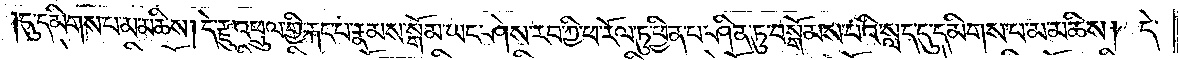དུ་དམིགས་པ་མ་མཆིས། དེ་རྫུ་འཕྲུལ་གྱི་རྐང་པ་རྣམས་སྒོམ་ཡང་ཤེས་རབ་ཀྱི་ཕ་རོལ་ཏུ་ཕྱིན་པ་ཤིན་ཏུ་བསྒོམས་པའི་སླད་དུ་དམིགས་པ་མ་མཆིས། དེ་
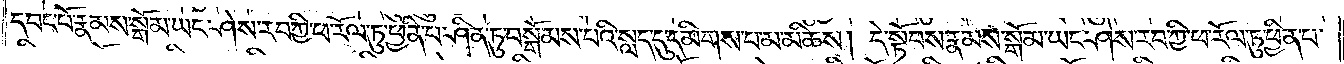དབང་པོ་རྣམས་སྒོམ་ཡང་ཤེས་རབ་ཀྱི་ཕ་རོལ་ཏུ་ཕྱིན་པ་ཤིན་ཏུ་བསྒོམས་པའི་སླད་དུ་དམིགས་པ་མ་མཆིས། དེ་སྟོབས་རྣམས་སྒོམ་ཡང་ཤེས་རབ་ཀྱི་ཕ་རོལ་ཏུ་ཕྱིན་པ་
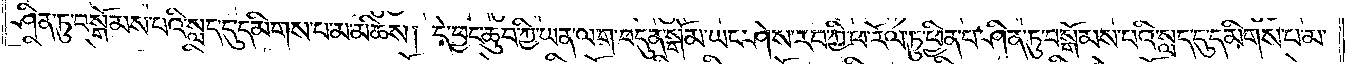ཤིན་ཏུ་བསྒོམས་པའི་སླད་དུ་དམིགས་པ་མ་མཆིས། དེ་བྱང་ཆུབ་ཀྱི་ཡན་ལག་བདུན་སྒོམ་ཡང་ཤེས་རབ་ཀྱི་ཕ་རོལ་ཏུ་ཕྱིན་པ་ཤིན་ཏུ་བསྒོམས་པའི་སླད་དུ་དམིགས་པ་མ་
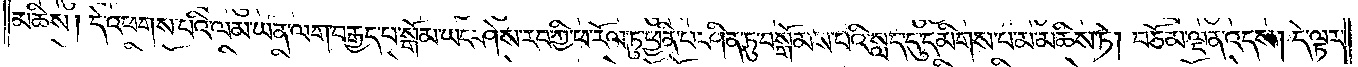མཆིས། དེ་འཕགས་པའི་ལམ་ཡན་ལག་བརྒྱད་པ་སྒོམ་ཡང་ཤེས་རབ་ཀྱི་ཕ་རོལ་ཏུ་ཕྱིན་པ་ཤིན་ཏུ་བསྒོམས་པའི་སླད་དུ་དམིགས་པ་མ་མཆིས་ཏེ། བཅོམ་ལྡན་འདས། དེ་ལྟར་
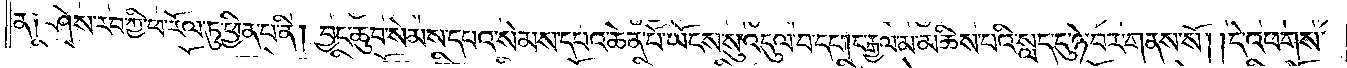ན། ཤེས་རབ་ཀྱི་ཕ་རོལ་ཏུ་ཕྱིན་པ་ནི། བྱང་ཆུབ་སེམས་དཔའ་སེམས་དཔའ་ཆེན་པོ་ཡོངས་སུ་འདུལ་བ་དང༌། ང་རྒྱལ་མ་མཆིས་པའི་སླད་དུ་ཉེ་བར་གནས་སོ། །དེ་འཕགས་
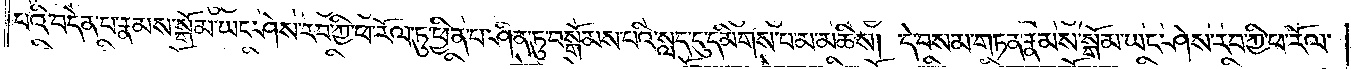པའི་བདེན་པ་རྣམས་སྒོམ་ཡང་ཤེས་རབ་ཀྱི་ཕ་རོལ་ཏུ་ཕྱིན་པ་ཤིན་ཏུ་བསྒོམས་པའི་སླད་དུ་དམིགས་པ་མ་མཆིས། དེ་བསམ་གཏན་རྣམས་སྒོམ་ཡང་ཤེས་རབ་ཀྱི་ཕ་རོལ་
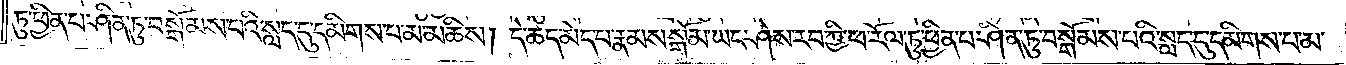ཏུ་ཕྱིན་པ་ཤིན་ཏུ་བསྒོམས་པའི་སླད་དུ་དམིགས་པ་མ་མཆིས། དེ་ཚད་མེད་པ་རྣམས་སྒོམ་ཡང་ཤེས་རབ་ཀྱི་ཕ་རོལ་ཏུ་ཕྱིན་པ་ཤིན་ཏུ་བསྒོམས་པའི་སླད་དུ་དམིགས་པ་མ་
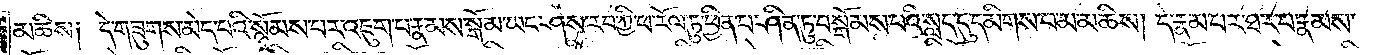མཆིས། དེ་གཟུགས་མེད་པའི་སྙོམས་པར་འཇུག་པ་རྣམས་སྒོམ་ཡང་ཤེས་རབ་ཀྱི་ཕ་རོལ་ཏུ་ཕྱིན་པ་ཤིན་ཏུ་བསྒོམས་པའི་སླད་དུ་དམིགས་པ་མ་མཆིས། དེ་རྣམ་པར་ཐར་པ་རྣམས་
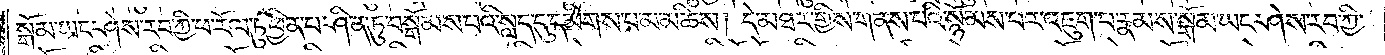སྒོམ་ཡང་ཤེས་རབ་ཀྱི་ཕ་རོལ་ཏུ་ཕྱིན་པ་ཤིན་ཏུ་བསྒོམས་པའི་སླད་དུ་དམིགས་པ་མ་མཆིས། དེ་མཐར་གྱིས་གནས་པའི་སྙོམས་པར་འཇུག་པ་རྣམས་སྒོམ་ཡང་ཤེས་རབ་ཀྱི་
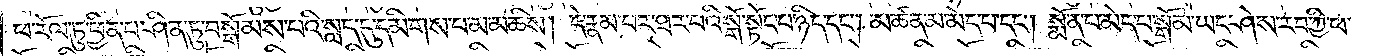ཕ་རོལ་ཏུ་ཕྱིན་པ་ཤིན་ཏུ་བསྒོམས་པའི་སླད་དུ་དམིགས་པ་མ་མཆིས། དེ་རྣམ་པར་ཐར་པའི་སྒོ་སྟོང་པ་ཉིད་དང༌། མཚན་མ་མེད་པ་དང༌། སྨོན་པ་མེད་པ་སྒོམ་ཡང་ཤེས་རབ་ཀྱི་ཕ་
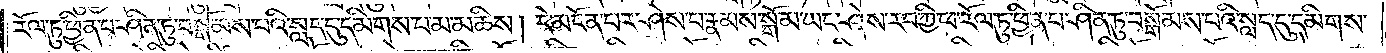རོལ་ཏུ་ཕྱིན་པ་ཤིན་ཏུ་བསྒོམས་པའི་སླད་དུ་དམིགས་པ་མ་མཆིས། དེ་མངོན་པར་ཤེས་པ་རྣམས་སྒོམ་ཡང་ཤེས་རབ་ཀྱི་ཕ་རོལ་ཏུ་ཕྱིན་པ་ཤིན་ཏུ་བསྒོམས་པའི་སླད་དུ་དམིགས་
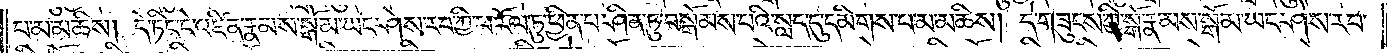པ་མ་མཆིས། དེ་ཏིང་ངེ་འཛིན་རྣམས་སྒོམ་ཡང་ཤེས་རབ་ཀྱི་ཕ་རོལ་ཏུ་ཕྱིན་པ་ཤིན་ཏུ་བསྒོམས་པའི་སླད་དུ་དམིགས་པ་མ་མཆིས། དེ་གཟུངས་ཀྱི་སྒོ་རྣམས་སྒོམ་ཡང་ཤེས་རབ་
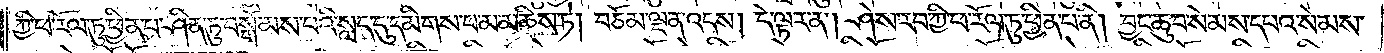ཀྱི་ཕ་རོལ་ཏུ་ཕྱིན་པ་ཤིན་ཏུ་བསྒོམས་པའི་སླད་དུ་དམིགས་པ་མ་མཆིས་ཏེ། བཅོམ་ལྡན་འདས། དེ་ལྟར་ན། ཤེས་རབ་ཀྱི་ཕ་རོལ་ཏུ་ཕྱིན་པ་ནི། བྱང་ཆུབ་སེམས་དཔའ་སེམས་
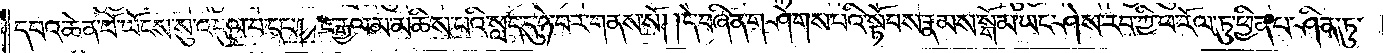དཔའ་ཆེན་པོ་ཡོངས་སུ་འདུལ་བ་དང༌། ང་རྒྱལ་མ་མཆིས་པའི་སླད་དུ་ཉེ་བར་གནས་སོ། །དེ་བཞིན་གཤེགས་པའི་སྟོབས་རྣམས་སྒོམ་ཡང་ཤེས་རབ་ཀྱི་ཕ་རོལ་ཏུ་ཕྱིན་པ་ཤིན་ཏུ་
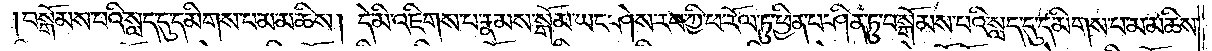བསྒོམས་པའི་སྨད་དུ་དམིགས་པ་མ་མཆིས། དེ་མི་འཇིགས་པ་རྣམས་སྒོམ་ཡང་ཤེས་རབ་ཀྱི་ཕ་རོལ་ཏུ་ཕྱིན་པ་ཤིན་ཏུ་བསྒོམས་པའི་སླད་དུ་དམིགས་པ་མ་མཆིས།
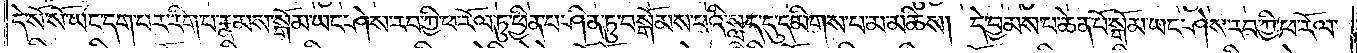དེ་སོ་སོ་ཡང་དག་པར་རིག་པ་རྣམས་སྒོམ་ཡང་ཤེས་རབ་ཀྱི་ཕ་རོལ་ཏུ་ཕྱིན་པ་ཤིན་ཏུ་བསྒོམས་པའི་སླད་དུ་དམིགས་པ་མ་མཆིས། དེ་བྱམས་པ་ཆེན་པོ་སྒོམ་ཡང་ཤེས་རབ་ཀྱི་ཕ་རོལ་
